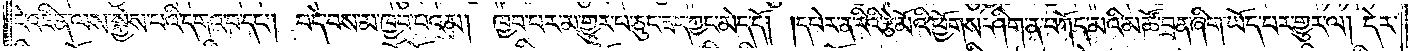ངེ་འཛིན་ལས་སྐྱེས་པའི་དགའ་བ་དང༌། བདེ་བས་མ་ཁྱབ་པའམ། ཁྱབ་པར་མ་གྱུར་བ་ཅུང་ཟད་ཀྱང་མེད་དོ། །དཔེར་ན་རིའི་རྩེ་མོའི་ཕྱོགས་ཤིག་ན་བཀོད་མའི་མཚོ་བྲན་ཞིག་ཡོད་པར་གྱུར་ལ། དེར་
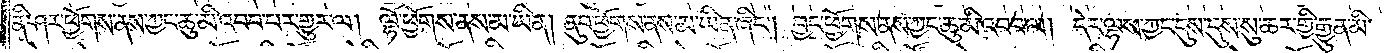ནི་ཤར་ཕྱོགས་ནས་ཀྱང་ཆུ་མི་འབབ་པར་གྱུར་ལ། ལྷོ་ཕྱོགས་ནས་མ་ཡིན། ནུབ་ཕྱོགས་ནས་མ་ཡིན་ཞིང༌། བྱང་ཕྱོགས་ནས་ཀྱང་ཆུ་མི་འབབ་ལ། དེར་ལྷས་ཀྱང་དུས་དུས་སུ་ཆར་གྱི་རྒྱུན་མི་
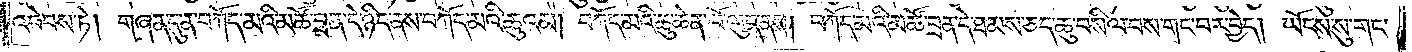འབེབས་ཏེ། གཞན་དུ་ན་བཀོད་མའི་མཚོ་བྲན་དེ་ཉིད་ནས་བཀོད་མའི་ཆུའམ། བཀོད་མའི་ཆུ་ཆེན་པོ་ལུད་ནས། བཀོད་མའི་མཚོ་བྲན་དེ་ཐམས་ཅད་ཆུ་བསིལ་བས་གང་བར་བྱེད། ཡོངས་སུ་གང་
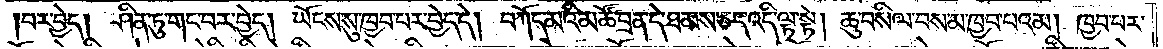བར་བྱེད། ཤིན་ཏུ་གང་བར་བྱེད། ཡོངས་སུ་ཁྱབ་པར་བྱེད་དེ། བཀོད་མའི་མཚོ་བྲན་དེ་ཐམས་ཅད་འདི་ལྟ་སྟེ། ཆུ་བསིལ་བས་མ་ཁྱབ་པའམ། ཁྱབ་པར་
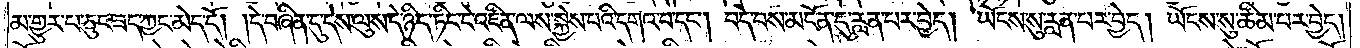མ་གྱུར་པ་ཅུང་ཟད་ཀྱང་མེད་དོ། །དེ་བཞིན་དུ་དེས་ལུས་དེ་ཉིད་ཏིང་ངེ་འཛིན་ལས་སྐྱེས་པའི་དགའ་བ་དང༌། བདེ་བས་མངོན་དུ་རླན་པར་བྱེད། ཡོངས་སུ་རླན་པར་བྱེད། ཡོངས་སུ་ཚིམ་པར་བྱེད།
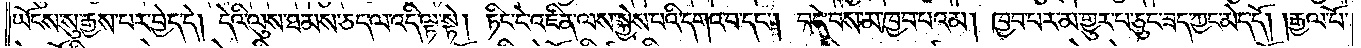ཡོངས་སུ་རྒྱས་པར་བྱེད་དེ། དེའི་ལུས་ཐམས་ཅད་ལ་འདི་ལྟ་སྟེ། ཏིང་ངེ་འཛིན་ལས་སྐྱེས་པའི་དགའ་བ་དང༌། བདེ་བས་མ་ཁྱབ་པའམ། ཁྱབ་པར་མ་གྱུར་པ་ཅུང་ཟད་ཀྱང་མེད་དོ། །རྒྱལ་པོ་
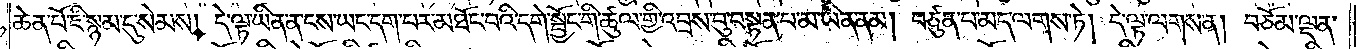ཆེན་པོ་ཇི་སྙམ་དུ་སེམས། དེ་ལྟ་ཡིན་ན་ངས་ཡང་དག་པར་མཐོང་བའི་དགེ་སྦྱོང་གི་ཚུལ་གྱི་འབྲས་བུ་བསྟན་པ་མ་ཡིན་ནམ། བཙུན་པ་མད་ལགས་ཏེ། དེ་ལྟ་ལགས་ན། བཅོམ་ལྡན་
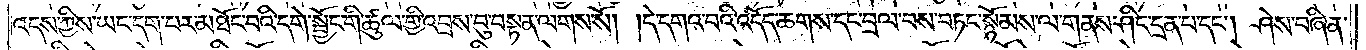འདས་ཀྱིས་ཡང་དག་པར་མཐོང་བའི་དགེ་སྦྱོང་གི་ཚུལ་གྱི་འབྲས་བུ་བསྟན་ལགས་སོ། །དེ་དགའ་བའི་འདོད་ཆགས་དང་བྲལ་བས་བཏང་སྙོམས་ལ་གནས་ཤིང་དྲན་པ་དང༌། ཤེས་བཞིན་
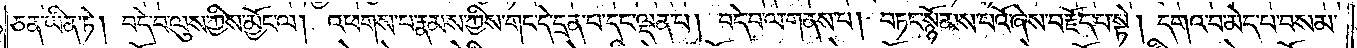ཅན་ཡིན་ཏེ། བདེ་བ་ལུས་ཀྱིས་མྱོང་ལ། འཕགས་པ་རྣམས་ཀྱིས་གང་དེ་དྲན་པ་དང་ལྡན་པ། བདེ་བ་ལ་གནས་པ། བཏང་སྙོམས་པའོ་ཞེས་བརྗོད་པ་སྟེ། དགའ་བ་མེད་པ་བསམ་
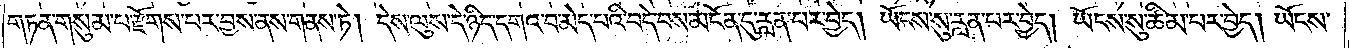གཏན་གསུམ་པ་རྫོགས་པར་བྱས་ནས་གནས་ཏེ། དེས་ལུས་དེ་ཉིད་དགའ་བ་མེད་པའི་བདེ་བས་མངོན་དུ་རླན་པར་བྱེད། ཡོངས་སུ་རླན་པར་བྱེད། ཡོངས་སུ་ཚིམ་པར་བྱེད། ཡོངས་
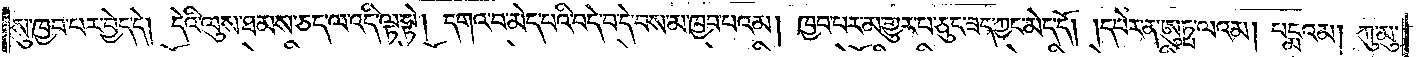སུ་ཁྱབ་པར་བྱེད་དེ། དེའི་ལུས་ཐམས་ཅད་ལ་འདི་ལྟ་སྟེ། དགའ་བ་མེད་པའི་བདེ་བ་དེ་བས་མ་ཁྱབ་པའམ། ཁྱབ་པར་མ་གྱུར་པ་ཅུང་ཟད་ཀྱང་མེད་དོ། །དཔེར་ན་ཨུཏྤ་ལའམ། པདྨའམ། ཀུ་མུ་
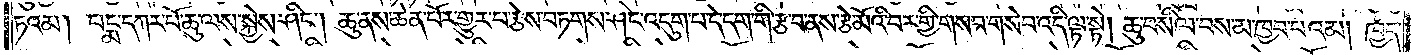ཏའམ། པདྨ་དཀར་པོ་ཆུ་ལས་སྐྱེས་ཤིང༌། ཆུ་ནས་ཆེན་པོར་གྱུར་པ་རྩེས་བཏགས་ཤིང་འདུག་པ་དེ་དག་གི་རྩ་བ་ནས་རྩེ་མོའི་བར་གྱི་གསབ་གསེབ་འདི་ལྟ་སྟེ། ཆུ་བསིལ་བས་མ་ཁྱབ་པའམ། ཁྱད་
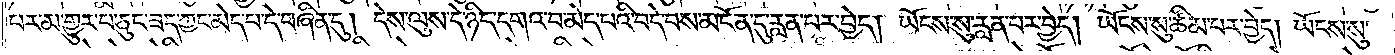པར་མ་གྱུར་པ་ཅུང་ཟད་ཀྱང་མེད་པ་དེ་བཞིན་དུ། དེས་ལུས་དེ་ཉིད་དགའ་བ་མེད་པའི་བདེ་བས་མངོན་དུ་རླན་པར་བྱེད། ཡོངས་སུ་རླན་པར་བྱེད། ཡོངས་སུ་ཚིམ་པར་བྱེད། ཡོངས་སུ་
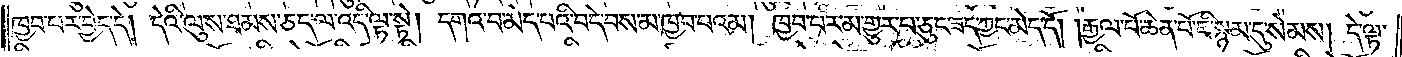ཁྱབ་པར་བྱེད་དེ། དེའི་ལུས་ཐམས་ཅད་ལ་འདི་ལྟ་སྟེ། དགའ་བ་མེད་པའི་བདེ་བས་མ་ཁྱབ་པའམ། ཁྱབ་པར་མ་གྱུར་པ་ཅུང་ཟད་ཀྱང་མེད་དོ། །རྒྱལ་པོ་ཆེན་པོ་ཇི་སྙམ་དུ་སེམས། དེ་ལྟ་
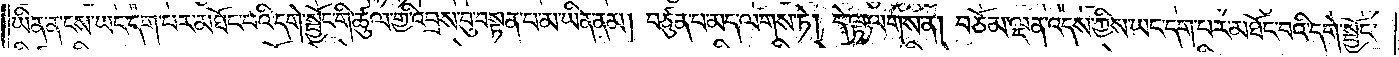ཡིན་ན་ངས་ཡང་དག་པར་མཐོང་བའི་དགེ་སྦྱོང་གི་ཚུལ་གྱི་འབྲས་བུ་བསྟན་པ་མ་ཡིན་ནམ། བཙུན་པ་མེད་ལགས་ཏེ། དེ་ལྟ་ལགས་ན། བཅོམ་ལྡན་འདས་ཀྱིས་ཡང་དག་པར་མཐོང་བའི་དགེ་སྦྱོང་
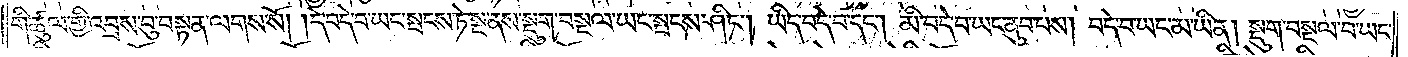གི་ཚུལ་གྱི་འབྲས་བུ་བསྟན་ལགས་སོ། །དེ་བདེ་བ་ཡང་སྤངས་ཏེ་སྔ་ནས་སྡུག་བསྔལ་ཡང་སྤངས་ཤིང༌། ཡིད་བདེ་བ་དང༌། མི་བདེ་བ་ཡང་ནུབ་པས། བདེ་བ་ཡང་མ་ཡིན། སྡུག་བསྔལ་པ་ཡང་
